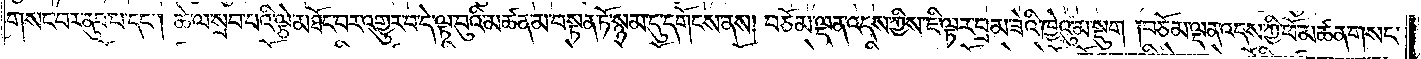གསང་བར་ནུབ་པ་དང༌། ཆེ་ལ་སྲབ་པའི་ལྕེ་མཐོང་བར་འགྱུར་བ་དེ་ལྟ་བུའི་མཚན་མ་བསྟན་ཏོ་སྙམ་དུ་དགོངས་ནས། བཅོམ་ལྡན་འདས་ཀྱིས་ཇི་ལྟར་བྲམ་ཟེའི་ཁྱེའུ་མ་སྡུག །བཅོམ་ལྡན་འདས་ཀྱི་ཕོ་མཚན་གསང་
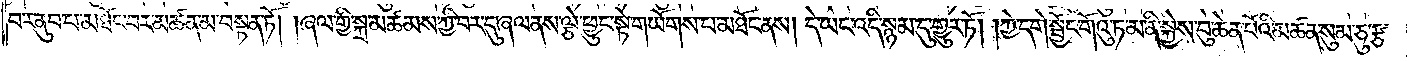བར་ནུབ་པ་མཐོང་བར་མཚན་མ་བསྟན་ཏོ། །ཞལ་གྱི་སྐྲ་མཚམས་ཀྱི་བར་དུ་ཞལ་ནས་ལྕེ་ཕྱུང་སྟེ་གཡོགས་པ་མཐོང་ནས། དེ་ཡང་འདི་སྙམ་དུ་གྱུར་ཏོ། །ཀྱེ་དགེ་སྦྱོང་གོའུ་ཏ་མ་ནི་སྐྱེས་བུ་ཆེན་པོའི་མཚན་སུམ་ཅུ་རྩ་
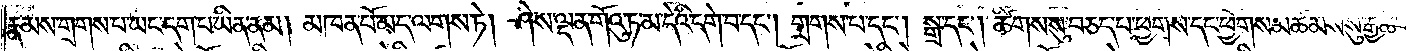རྣམས་གྲགས་པ་ཡང་དག་པ་ཡིན་ནམ། མཁན་པོ་མད་ལགས་ཏེ། ཤེས་ལྡན་གོའུ་ཏ་མ་དེའི་དགེ་བ་དང༌། གྲགས་པ་དང༌། སྒྲ་དང༌། ཚིགས་སུ་བཅད་པ་ཕྱོགས་དང་ཕྱོགས་མཚམས་སུ་རྒྱ་ཆེར་
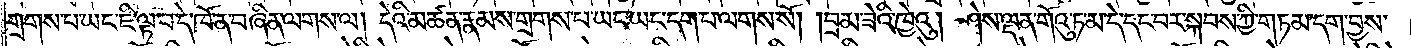གྲགས་པ་ཡང་ཇི་ལྟ་བ་དེ་ཁོ་ན་བཞིན་ལགས་ལ། དེའི་མཚན་རྣམས་གྲགས་པ་ཡང་ཡང་དག་པ་ལགས་སོ། །བྲམ་ཟེའི་ཁྱེའུ། ཤེས་ལྡན་གོའུ་ཏ་མ་དེ་དང་བར་སྐབས་ཀྱི་གཏམ་དག་བྱས་
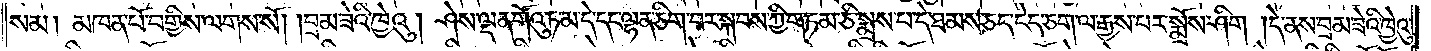སམ། མཁན་པོ་བགྱིས་ལགས་སོ། །བྲམ་ཟེའི་ཁྱེའུ། ཤེས་ལྡན་གོའུ་ཏ་མ་དེ་དང་ལྷན་ཅིག་བར་སྐབས་ཀྱི་གཏམ་ཅི་སྨྲས་པ་དེ་ཐམས་ཅད་ངེད་ཅག་ལ་རྒྱས་པར་སྨྲོས་ཤིག །དེ་ནས་བྲམ་ཟེའི་ཁྱེའུ་
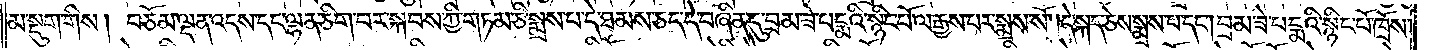མ་སྡུག་གིས། བཅོམ་ལྡན་འདས་དང་ལྷན་ཅིག་བར་སྐབས་ཀྱི་གཏམ་ཅི་སྨྲས་པ་དེ་ཐམས་ཅད་དེ་བཞིན་དུ་བྲམ་ཟེ་པདྨའི་སྙིང་པོ་ལ་རྒྱས་པར་སྨྲས་སོ། །དེ་སྐད་ཅེས་སྨྲས་པ་དང༌། བྲམ་ཟེ་པདྨའི་སྙིང་པོ་ཁྲོས་
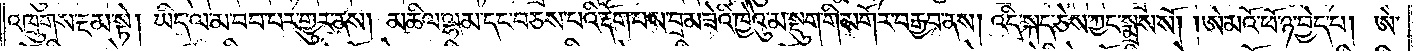འཁྲུགས་རྔམ་སྟེ། ཡིད་ལ་མ་བབ་པར་གྱུར་ནས། མཆིལ་ལྷམ་དང་བཅས་པའི་རྡོག་པས་བྲམ་ཟེའི་ཁྱེའུ་མ་སྡུག་གི་མགོར་བརྒྱབ་ནས། འདི་སྐད་ཅེས་ཀྱང་སྨྲས་སོ། །ཨེ་མའོ་ཕོ་ཉ་བྱེད་པ། ཨེ་
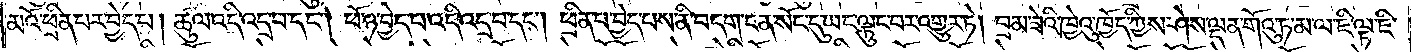མའོ་ཕྲིན་པར་བྱེད་པ། ཚུལ་འདི་འདྲ་བ་དང༌། ཕོ་ཉ་བྱེད་པ་འདི་འདྲ་བ་དང༌། ཕྲིན་པ་བྱེད་པས་ནི་བདག་ངན་སོང་དུ་ཡང་ལྟུང་བར་འགྱུར་ཏེ། བྲམ་ཟེའི་ཁྱེའུ་ཁྱོད་ཀྱིས་ཤེས་ལྡན་གོའུ་ཏ་མ་ལ་ཇི་ལྟ་ཇི་
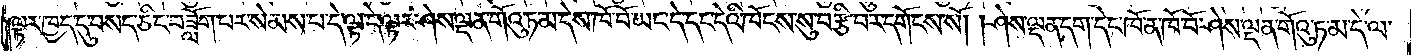ལྟར་ཁྱད་དུ་བསད་ཅིང་བཟློག་པས་སེམས་པ་དེ་ལྟ་དེ་ལྟར་ཤེས་ལྡན་གོའུ་ཏ་མ་དེས་ཁོ་བོ་ཡང་དེ་དང་དེའི་ཁོངས་སུ་བརྩི་བར་དགོངས་སོ། །ཤེས་ལྡན་དག་དེང་ཁོ་ན་ཁོ་བོ་ཤེས་ལྡན་གོའུ་ཏ་མ་དེ་ལ་
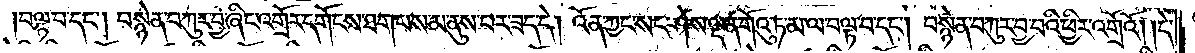བལྟ་བ་དང༌། བསྙེན་བཀུར་བྱ་ཞིང་འགྲོར་དགོངས་ཐག་པས་མ་ནུས་པར་ཟད་དེ། འོན་ཀྱང་སང་ཤེས་ལྡན་གོའུ་ཏ་མ་ལ་བལྟ་བ་དང༌། བསྙེན་བཀུར་བྱ་བའི་ཕྱིར་འགྲོའོ། །དེ་
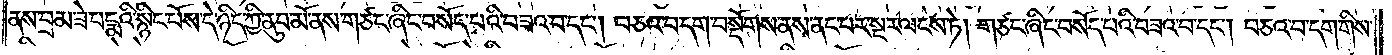ནས་བྲམ་ཟེ་པདྨའི་སྙིང་པོས་དེ་ཉིད་ཀྱི་ནུབ་མོ་ནས་གཙང་ཞིང་བསོད་པའི་བཟའ་བ་དང༌། བཅའ་བ་དག་བསྡོགས་ནས་ནང་པར་སྔར་ལངས་ཏེ། གཙང་ཞིང་བསོད་པའི་བཟའ་བ་དང༌། བཅའ་བ་དག་གིས་
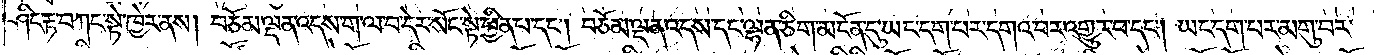ཤིང་རྟ་བཀང་སྟེ་ཁྱེར་ནས། བཅོམ་ལྡན་འདས་ག་ལ་བ་དེར་སོང་སྟེ་ཕྱིན་པ་དང༌། བཅོམ་ལྡན་འདས་དང་ལྷན་ཅིག་མངོན་དུ་ཡང་དག་པར་དགའ་བར་འགྱུར་བ་དང༌། ཡང་དག་པར་མགུ་བར་
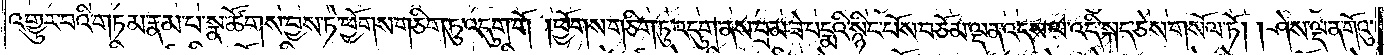འགྱུར་བའི་གཏམ་རྣམ་པ་སྣ་ཚོགས་བྱས་ཏེ་ཕྱོགས་གཅིག་ཏུ་འདུག་གོ །ཕྱོགས་གཅིག་ཏུ་འདུག་ནས་བྲམ་ཟེ་པདྨའི་སྙིང་པོས་བཅོམ་ལྡན་འདས་ལ་འདི་སྐད་ཅེས་གསོལ་ཏོ། །ཤེས་ལྡན་གོའུ་
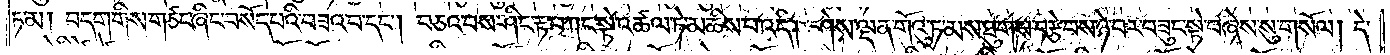ཏ་མ། བདག་གིས་གཙང་ཞིང་བསོད་པའི་བཟའ་བ་དང༌། བཅའ་བས་ཤིང་རྟ་བཀང་སྟེ་འཚལ་ཏེ་མཆིས་པ་འདི། ཤེས་ལྡན་གོའུ་ཏ་མས་ཐུགས་བརྩེ་བས་ཉེ་བར་བཟུང་སྟེ་བཞེས་སུ་གསོལ། དེ་
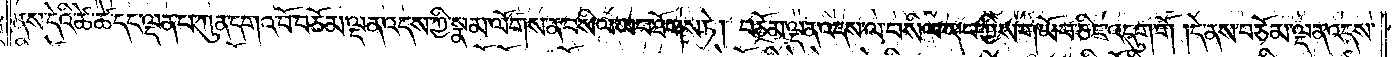ནས་དེའི་ཚེ་ཚེ་དང་ལྡན་པ་ཀུན་དགའ་བོ་བཅོམ་ལྡན་འདས་ཀྱི་སྣམ་ལོགས་ན་བསིལ་ཡབ་ཐོགས་ཏེ། བཅོམ་ལྡན་འདས་ལ་བསིལ་ཡབ་ཀྱིས་གཡོབ་ཅིང་འདུག་གོ །དེ་ནས་བཅོམ་ལྡན་འདས་
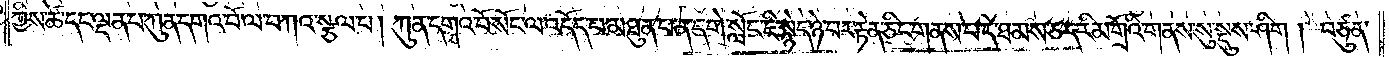ཀྱིས་ཚེ་དང་ལྡན་པ་ཀུན་དགའ་བོ་ལ་བཀའ་སྩལ་པ། ཀུན་དགའ་བོ་སོང་ལ་འདོད་པ་མཐུན་པ་ན་དགེ་སློང་ཇི་སྙེད་ཉེ་བར་རྟེན་ཅིང་གནས་པ་དེ་ཐམས་ཅད་རིམ་གྲོའི་གནས་སུ་སྡུས་ཤིག །བཙུན་
